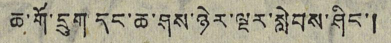ཆ་གོ་དྲུག དང་ཆ་ཤས་ཉེར་ལྔར་སླེབས་ཤིང་།
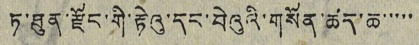ཏུ་ཐུན་རྫོང་གི་རྟེའུ་དང་བེའུའི་གསོན་ཚད་ཆ་་་་་
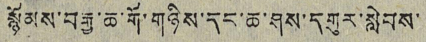སྙོམས་བརྒྱ་ཆ་གོ་གཉིས་དང་ཆ་ཤས་དགུར་སླེབས་
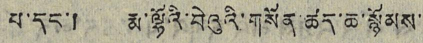པ་དང་། རྨ་ལྷོའི་བེའུའི་གསོན་ཚད་ཆ་སྙོམས་
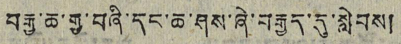བརྒྱ་ཆ་རྒྱ་བཞི་དང་ཆ་ཤས་ཞེ་བརྒྱད་དུ་སླེབས།
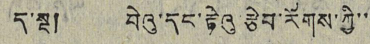ད་སྔ། བེའུ་དང་རྟེའུ རྩེབ་རོགས་ཀྱི་་་
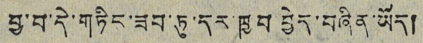བྱ་བ་དེ་གཏིང་ཟབ་ཏུ་དར་ཁྱབ བྱེད་བཞིན་ཡོད།
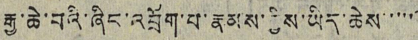རྒྱ་ཆེ་བའི་ཞིང་འབྲོག་པ་རྣམས་ཀྱིས་ཡིད་ཆེས་་་་་་
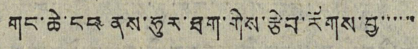གང་ཆེ་ངང ནས་ཧུར་ཐག་གིས་རྩེབ་རོགས་བྱ་་་་་་
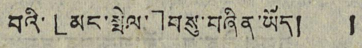བའི་「མང་སྤེལ་」བསུ་བཞིན་ཡོད། །
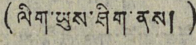(ལིག་ཡུས་ཤིག་ནས།)
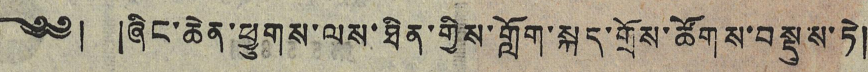༄༅། །ཞིང་ཆེན་ཕྱུགས་ལས་ཐིན་གྱིས་གློག་སྐད་གྲོས་ཚོགས་བསྡུས་ཏེ།
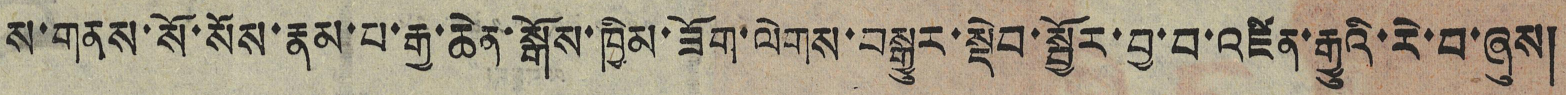ས་གནས་སོ་སོས་རྣམ་པ་རྒྱ་ཆེན་སྒོས་ཁྱིམ་ཟོག་ལེགས་བསྒྱུར་སྡེབ་སྦྱོར་བྱ་བ་འཛིན་རྒྱུའི་རེ་བ་ཞུས།
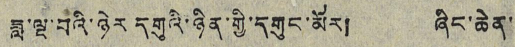ཟླ་ལྔ་བའི་ཉེར དགུའི་ཉིན་གྱི་དགུང་མོར། ཞིང་ཆེན་
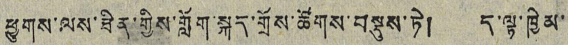ཕྱུགས་ལས་ཟིན་གྱིས་གློག་སྐད་གྲོས་ཚོགས་བསྡུས་ཏེ། ད་ལྟ་ཁྱིམ་
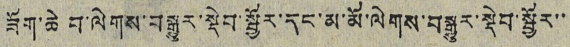ཟོག་ཆེ བ་ལེགས་བསྒྱུར་སྡེབ་སྦྱོར་དང་མ་མོ་ལེགས་བསྒྱུར་སྡེབ་སྦྱོར་་
